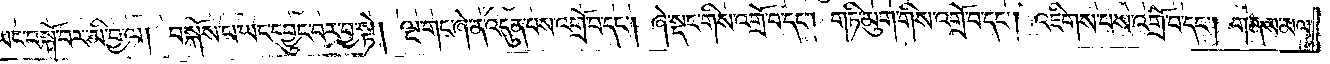ཡང་བསྐོ་བར་མི་བྱ་ལ། བསྐོས་པ་ཡང་དབྱུང་བར་བྱ་སྟེ། ལྔ་གང་ཞེ་ན་འདུན་པས་འགྲོ་བ་དང༌། ཞེ་སྡང་གིས་འགྲོ་བ་དང༌། གཏི་མུག་གིས་འགྲོ་བ་དང༌། འཇིགས་པས་འགྲོ་བ་དང༌། གནས་མལ་
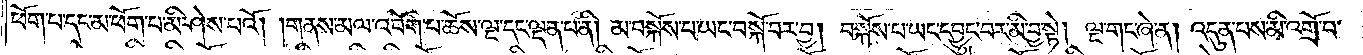ཕོག་པ་དང་མ་ཕོག་པ་མི་ཤེས་པའོ། །གནས་མལ་འབོག་པ་ཆོས་ལྔ་དང་ལྡན་པ་ནི། མ་བསྐོས་པ་ཡང་བསྐོ་བར་བྱ། བསྐོས་པ་ཡང་དབྱུང་བར་མི་བྱ་སྟེ། ལྔ་གང་ཞེ་ན། འདུན་པས་མི་འགྲོ་བ་
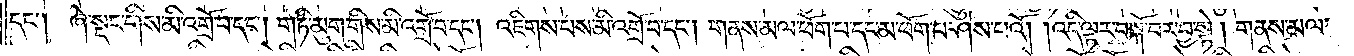དང༌། ཞེ་སྡང་གིས་མི་འགྲོ་བ་དང༌། གཏི་མུག་གིས་མི་འགྲོ་བ་དང༌། འཇིགས་པས་མི་འགྲོ་བ་དང༌། གནས་མལ་ཕོག་པ་དང་མ་ཕོག་པ་ཤེས་པའོ། །འདི་ལྟར་བསྐོ་བར་བྱ་སྟེ། གནས་མལ་
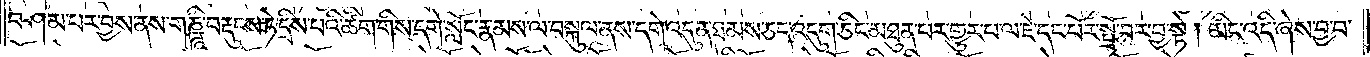བཤམ་པར་བྱས་ནས་གཎྜཱི་བརྡུངས་ཏེ་དྲིས་པའི་ཚིག་གིས་དགེ་སློང་རྣམས་ལ་བསྐུལ་ནས་དགེ་འདུན་ཐམས་ཅད་འདུག་ཅིང་མཐུན་པར་གྱུར་པ་ལ་ཇེ་དང་པོར་སྤྲོ་བར་བྱ་སྟེ། མིང་འདི་ཞེས་བྱ་བ་
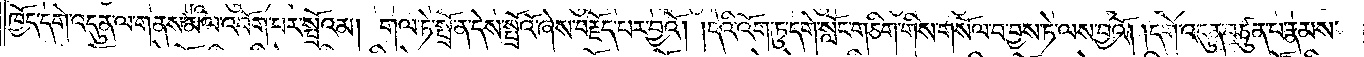ཁྱོད་དགེ་འདུན་ལ་གནས་མལ་འབོག་པར་སྤྲོའམ། གལ་ཏེ་སྤྲོ་ན་དེས་སྤྲོའོ་ཞེས་བརྗོད་པར་བྱའོ། །དེའི་འོག་ཏུ་དགེ་སློང་གཅིག་གིས་གསོལ་བ་བྱས་ཏེ་ལས་བྱའོ། །དགེ་འདུན་བཙུན་པ་རྣམས་
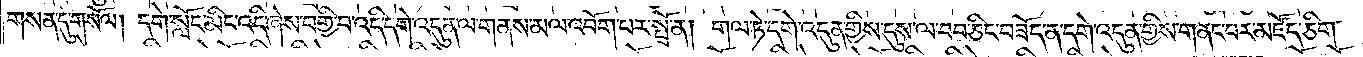གསན་དུ་གསོལ། དགེ་སློང་མིང་འདི་ཞེས་བགྱི་བ་འདི་དགེ་འདུན་ལ་གནས་མལ་འབོག་པར་སྤྲོ་ན། གལ་ཏེ་དགེ་འདུན་གྱིས་དུས་ལ་བབ་ཅིང་བཟོད་ན་དགེ་འདུན་གྱིས་གནང་བར་མཛོད་ཅིག་
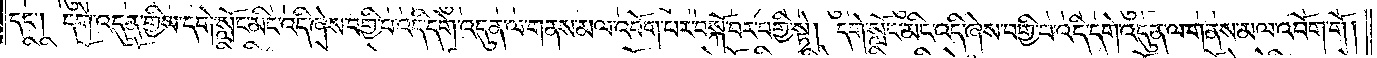དང༌། དགེ་འདུན་གྱིས་དགེ་སློང་མིང་འདི་ཞེས་བགྱི་བ་འདི་དགེ་འདུན་ལ་གནས་མལ་འབོག་པར་བསྐོ་བར་བགྱི་སྟེ། དགེ་སློང་མིང་འདི་ཞེས་བགྱི་བ་འདི་དགེ་འདུན་ལ་གནས་མལ་འབོག་གོ།
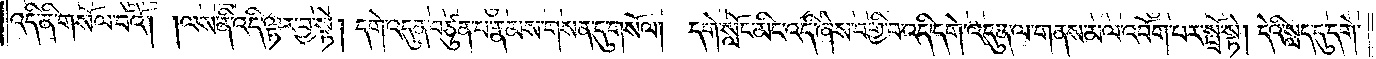འདི་ནི་གསོལ་བའོ། །ལས་ནི་འདི་ལྟར་བྱ་སྟེ། དགེ་འདུན་བཙུན་པ་རྣམས་གསན་དུ་གསོལ། དགེ་སློང་མིང་འདི་ཞེས་བགྱི་བ་འདི་དགེ་འདུན་ལ་གནས་མལ་འབོག་པར་སྤྲོ་སྟེ། དེའི་སླད་དུ་དགེ་
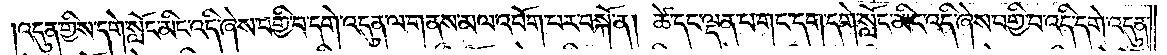།འདུན་གྱིས་དགེ་སློང་མིང་འདི་ཞེས་བགྱི་བ་དགེ་འདུན་ལ་གནས་མལ་འབོག་པར་བསྐོ་ན། ཚེ་དང་ལྡན་པ་གང་དག་དགེ་སློང་མིང་འདི་ཞེས་བགྱི་བ་འདི་དགེ་འདུན་
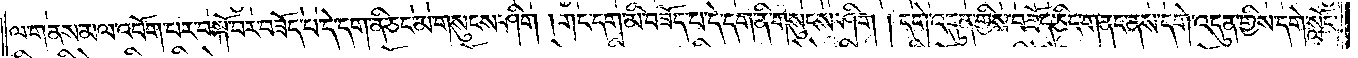ལ་གནས་མལ་འབོག་པར་བསྐོ་བར་བཟོད་པ་དེ་དག་ནི་ཅང་མ་གསུངས་ཤིག །གང་དག་མི་བཟོད་པ་དེ་དག་ནི་གསུངས་ཤིག །དགེ་འདུན་གྱིས་བཟོད་ཅིང་གནང་ནས་དགེ་འདུན་གྱིས་དགེ་སློང་
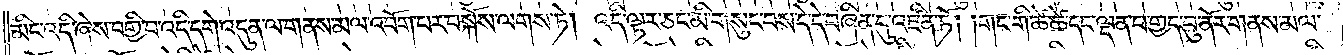མིང་འདི་ཞེས་བགྱི་བ་འདི་དགེ་འདུན་ལ་གནས་མལ་འབོག་པར་བསྐོས་ལགས་ཏེ། འདི་ལྟར་ཅང་མི་གསུང་བས་དེ་དེ་བཞིན་དུ་འཛིན་ཏོ། །གང་གི་ཚེ་ཚེ་དང་ལྡན་པ་གྱད་བུ་ནོར་གནས་མལ་
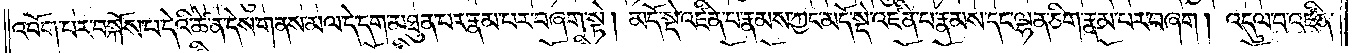འབོག་པར་བསྐོས་པ་དེའི་ཚེ་ན་དེས་གནས་མལ་དེ་དག་མཐུན་པར་རྣམ་པར་བཞག་སྟེ། མདོ་སྡེ་འཛིན་པ་རྣམས་ཀྱང་མདོ་སྡེ་འཛིན་པ་རྣམས་དང་ལྷན་ཅིག་རྣམ་པར་བཞག། འདུལ་བ་འཛིན་
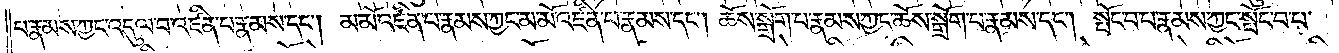པ་རྣམས་ཀྱང་འདུལ་བ་འཛིན་པ་རྣམས་དང༌། མ་མོ་འཛིན་པ་རྣམས་ཀྱང་མ་མོ་འཛིན་པ་རྣམས་དང༌། ཆོས་སྒྲོག་པ་རྣམས་ཀྱང་ཆོས་སྒྲོག་པ་རྣམས་དང༌། སྤོང་བ་པ་རྣམས་ཀྱང་སྤོང་བ་པ་
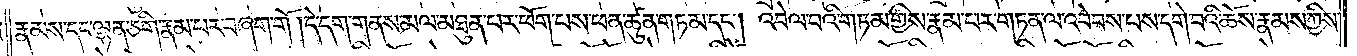རྣམས་དང་ལྷན་ཅིག་རྣམ་པར་བཞག་གོ །དེ་དག་གནས་མལ་མཐུན་པར་ཕོག་པས་ཕན་ཚུན་གཏམ་དང༌། འབེལ་བའི་གཏམ་གྱིས་རྣམ་པར་གཏན་ལ་འབེབས་པས་དགེ་བའི་ཆོས་རྣམས་ཀྱིས་
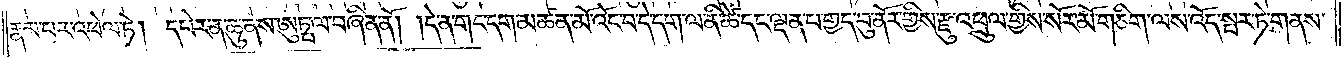རྣམ་པར་འཕེལ་ཏེ། དཔེར་ན་ཆུ་ནས་ཨུཏྤལ་བཞིན་ནོ། །དེ་ན་གང་དག་མཚན་མོ་འོང་བ་དེ་དག་ལ་ནི་ཚེ་དང་ལྡན་པ་གྱད་བུ་ནོར་གྱིས་རྫུ་འཕྲུལ་གྱིས་སོར་མོ་གཅིག་ལས་འོད་སྦར་ཏེ་གནས་
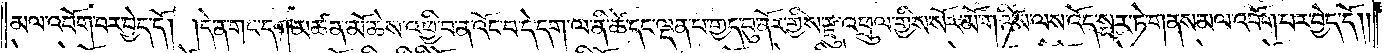མལ་འབོག་པར་བྱེད་དོ། །དེ་ན་གང་དག་མཚན་མོ་ཆེས་འཕྱི་བ་ན་འོང་བ་དེ་དག་ལ་ནི་ཚེ་དང་ལྡན་པ་གྱད་བུ་ནོར་གྱིས་རྫུ་འཕྲུལ་གྱིས་སོར་མོ་གཉིས་ལས་འོད་སྤར་ཏེ་གནས་མལ་འབོག་པར་བྱེད་དོ། །
